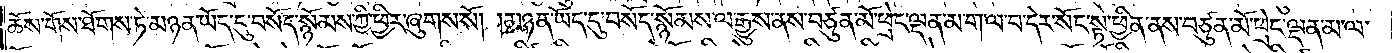ཆོས་གོས་ཐོགས་ཏེ་མཉན་ཡོད་དུ་བསོད་སྙོམས་ཀྱི་ཕྱིར་ཞུགས་སོ། །མཉན་ཡོད་དུ་བསོད་སྙོམས་ལ་རྒྱུས་ནས་བཙུན་མོ་ཕྲེང་ལྡན་མ་ག་ལ་བ་དེར་སོང་སྟེ་ཕྱིན་ནས་བཙུན་མོ་ཕྲེང་ལྡན་མ་ལ་
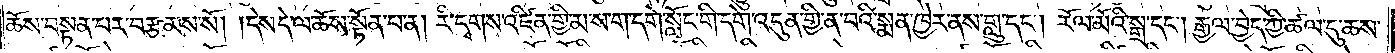ཆོས་བསྟན་པར་བརྩམས་སོ། །དེས་དེ་ལ་ཆོས་སྟོན་པ་ན། རི་དྭགས་འཛིན་གྱི་མ་ས་ག་དགེ་སློང་གི་དགེ་འདུན་གྱི་ན་བའི་སྨན་ཁྱེར་ནས་གླུ་དང༌། རོལ་མོའི་སྒྲ་དང༌། རྒྱལ་བྱེད་ཀྱི་ཚལ་དུ་ཆས་
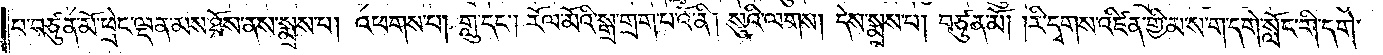པ་བཙུན་མོ་ཕྲེང་ལྡན་མས་ཐོས་ནས་སྨྲས་པ། འཕགས་པ། གླུ་དང༌། རོལ་མོའི་སྒྲ་གྲག་པའོ་ནི། སུའི་ལགས། དེས་སྨྲས་པ། བཙུན་མོ། །རི་དྭགས་འཛིན་གྱི་མ་ས་ག་དགེ་སློང་གི་དགེ་
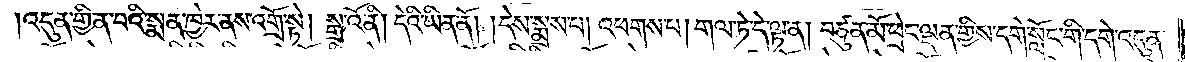འདུན་གྱི་ན་བའི་སྨན་ཁྱེར་ནས་འགྲོ་སྟེ། སྒྲ་འོ་ནི། །དེའི་ཡིན་ནོ། །དེས་སྨྲས་པ། འཕགས་པ། གལ་ཏེ་དེ་ལྟ་ན། བཙུན་མོ་ཕྲེང་ལྡན་གྱིས་དགེ་སློང་གི་དགེ་འདུན་
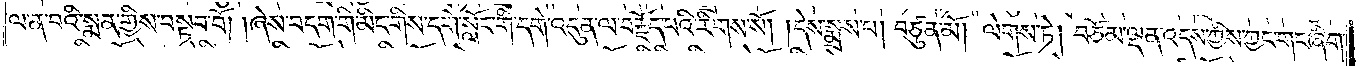ལ་ན་བའི་སྨན་གྱིས་བསྟབ་བོ། །ཞེས་བདག་གི་མིང་གིས་དགེ་སློང་གི་དགེ་འདུན་ལ་བརྗོད་པའི་རིགས་སོ། །དེས་སྨྲས་པ། བཙུན་མོ། ལེགས་ཏེ། བཅོམ་ལྡན་འདས་ཀྱིས་ཀྱང་གང་ཞིག་
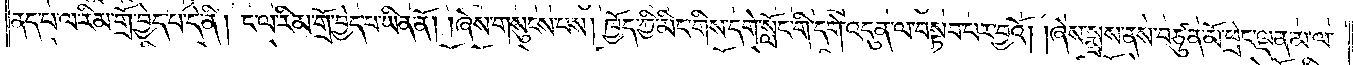ནད་པ་ལ་རིམ་གྲོ་བྱེད་པ་དེ་ནི། ང་ལ་རིམ་གྲོ་བྱེད་པ་ཡིན་ནོ། །ཞེས་གསུངས་པས། ཁྱོད་ཀྱི་མིང་གིས་དགེ་སློང་གི་དགེ་འདུན་ལ་བསྟབ་པར་བྱའོ། །ཞེས་སྨྲས་ནས་བཙུན་མོ་ཕྲེང་ལྡན་མ་ལ་
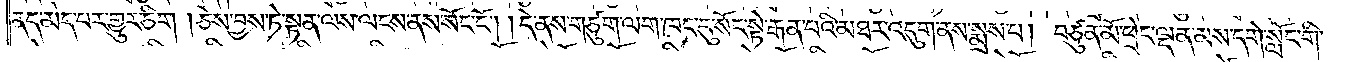ནད་མེད་པར་གྱུར་ཅིག །ཅེས་བྱས་ཏེ་སྟན་ལས་ལངས་ནས་སོང་ངོ༌། །དེ་ནས་གཙུག་ལག་ཁང་དུ་སོང་སྟེ་རྒན་པའི་མཐར་འདུག་ནས་སྨྲས་པ། བཙུན་མོ་ཕྲེང་ལྡན་མས་དགེ་སློང་གི་
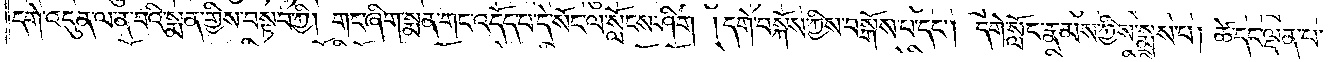དགེ་འདུན་ལ་ན་བའི་སྨན་གྱིས་བསྟབ་ཀྱི། གང་ཞིག་སྨན་གང་འདོད་པ་དེ་སོང་ལ་སློངས་ཤིག །དགེ་བསྐོས་ཀྱིས་བསྒོས་པ་དང༌། དགེ་སློང་རྣམས་ཀྱིས་སྨྲས་པ། ཚེ་དང་ལྡན་པ་
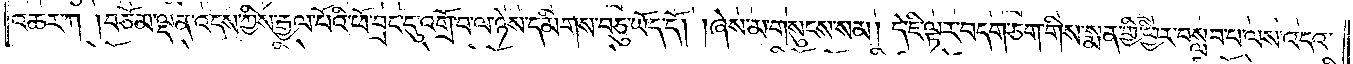འཆར་ཀ །བཅོམ་ལྡན་འདས་ཀྱིས་རྒྱལ་པོའི་ཕོ་བྲང་དུ་འགྲོ་བ་ལ་ཉེས་དམིགས་བཅུ་ཡོད་དོ། །ཞེས་མ་གསུངས་སམ། དེ་ཇི་ལྟར་བདག་ཅག་གིས་སྨན་གྱི་ཕྱིར་བསླབ་པ་ལས་འདའ་
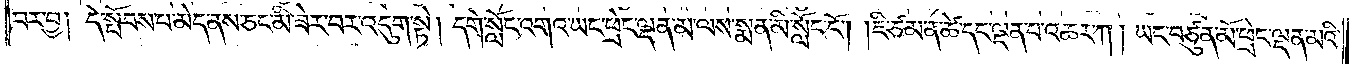བར་བྱ། དེ་སྤོབས་པ་མེད་ནས་ཅང་མི་ཟེར་བར་འདུག་སྟེ། དགེ་སློང་འགའ་ཡང་ཕྲེང་ལྡན་མ་ལས་སྨན་མི་སློང་ངོ༌། །ཇི་ཙམ་ན་ཚེ་དང་ལྡན་པ་འཆར་ཀ། ཡང་བཙུན་མོ་ཕྲེང་ལྡན་མའི་
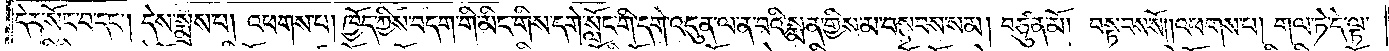དེར་སོང་བ་དང༌། དེས་སྨྲས་པ། འཕགས་པ། ཁྱོད་ཀྱིས་བདག་གི་མིང་གིས་དགེ་སློང་གི་དགེ་འདུན་ལ་ན་བའི་སྨན་གྱིས་མ་བསྟབས་སམ། བཙུན་མོ། བསྟབས་སོ། །འཕགས་པ། གལ་ཏེ་དེ་ལྟ་
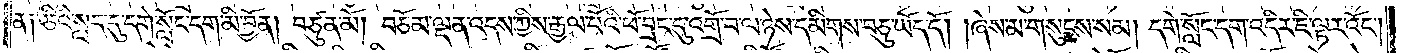ན། ཅིའི་སླད་དུ་དགེ་སློང་དག་མི་བྱོན། །བཙུན་མོ། བཅོམ་ལྡན་འདས་ཀྱིས་རྒྱལ་པོའི་ཕོ་བྲང་དུ་འགྲོ་བ་ལ་ཉེས་དམིགས་བཅུ་ཡོད་དོ། །ཞེས་མ་གསུངས་སམ། དགེ་སློང་དག་འདིར་ཇི་ལྟར་འོང༌།
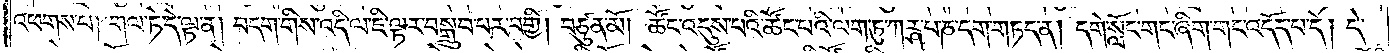འཕགས་པ། གལ་ཏེ་དེ་ལྟ་ན། བདག་གིས་འདི་ལ་ཇི་ལྟར་བསྒྲུབ་པར་བགྱི། བཙུན་མོ། ཚོང་འདུས་པའི་ཚོང་པའི་ལག་ཏུ་ཀཪྴ་པ་ཎ་དག་གཏད་ན། དགེ་སློང་གང་ཞིག་གང་འདོད་པ་དེ། དེ་
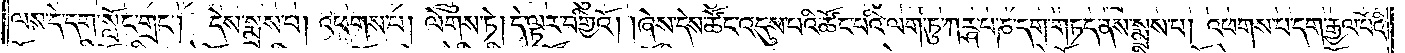ལས་དེ་དག་སློང་གྲང༌། དེས་སྨྲས་པ། འཕགས་པ། ལེགས་ཏེ། དེ་ལྟར་བགྱིའོ། །ཞེས་དེས་ཚོང་འདུས་པའི་ཚོང་བའི་ལག་ཏུ་ཀཪྴ་པ་ཎ་དག་གཏད་ནས་སྨྲས་པ། འཕགས་པ་དག་རྒྱལ་པོའི་
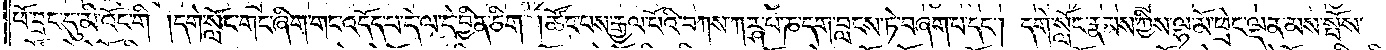ཕོ་བྲང་དུ་མི་འོང་གི །དགེ་སློང་གང་ཞིག་གང་འདོད་པ་དེ་ལ་དེ་བྱིན་ཅིག །ཚོང་པས་རྒྱལ་པོའི་བཀས་ཀཪྴ་པ་ཎ་དག་བླངས་ཏེ་བཞག་པ་དང༌། དགེ་སློང་རྣམས་ཀྱིས་ལྷ་མོ་ཕྲེང་ལྡན་མས་སྤོས་
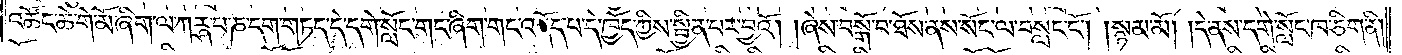འཚོང་ཆེ་གེ་མོ་ཞིག་ལ་ཀཪྴ་པ་ཎ་དག་གཏད་དེ་དགེ་སློང་གང་ཞིག་གང་འདོད་པ་དེ་ཁྱོད་ཀྱིས་སྦྱིན་པར་བྱའོ། །ཞེས་བསྒོ་བ་ཐོས་ནས་སོང་ལ་བསླང་ངོ༌། །སྙམ་མོ། དེ་ནས་དགེ་སློང་ཁ་ཅིག་ནི།
